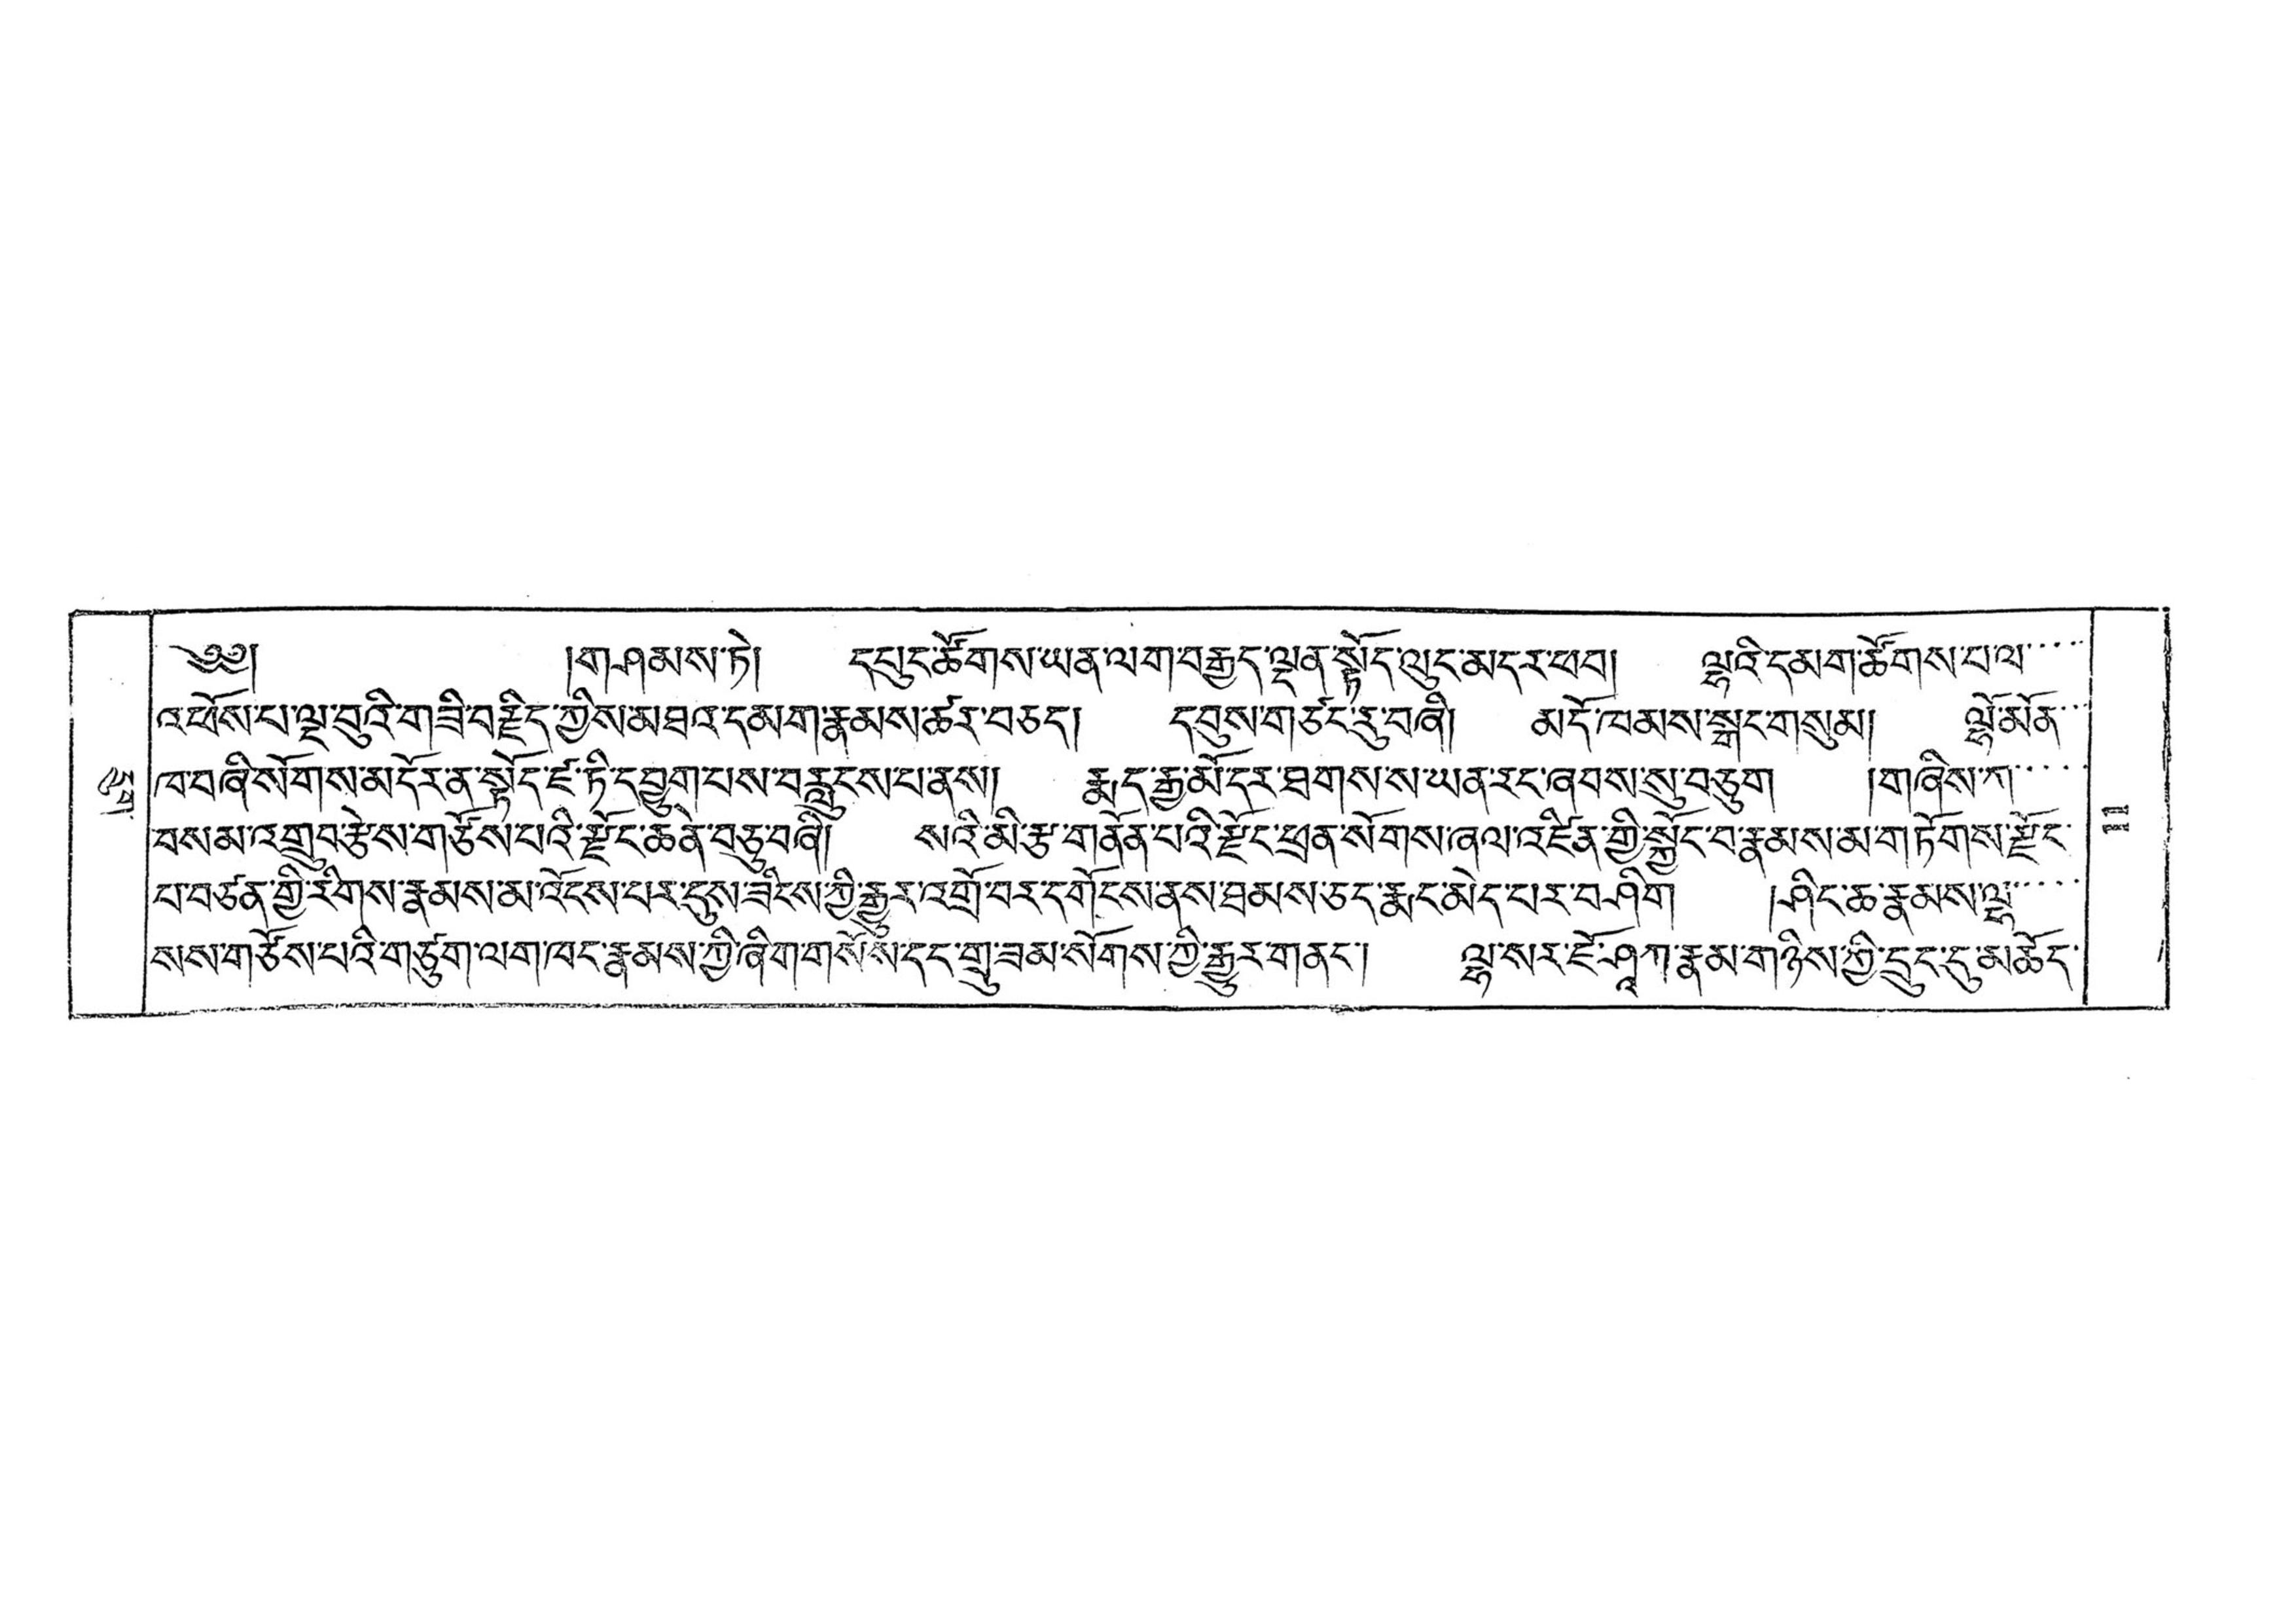དྲུག་
༄༅། །གཤམས་ཏེ། དཔུང་ཚོགས་ཡན་ལག་བརྒྱད་ལྡན་སྟོད་ལུང་མདར་ཕབ། ལྷའི་དམག་ཚོགས་པ་ལ་་་་་
འཕོས་པ་ལྔ་བུའི་གཟི་བརྗིད་ཀྱིས་མཐའ་དམག་རྣམས་ཚར་བཅད། དབུས་གཙང་རུ་བཞི། མདོ་ཁམས་སྒང་གསུམ། ལྷོ་མོན་་་
ཁ་བཞི་སོགས་མདོར་ན་སྟོད་ཛ་ཏི་དབྱུག་པས་བརླུངས་པ་ནས། རྨད་རྒྱ་མོ་དར་ཐགས་ས་ཡན་རང་ཞབས་སུ་བཅུག །གཞིས་ཀ་་་
བསམ་འགྲུབ་རྩེས་གཙོསཔའི་རྫོང་ཆེན་བཅུ་བཞི། སའི་མི་རྩ་གནོན་པའི་རྫོང་ཕྲན་སོགས་ཞལ་འཛིན་གྱི་སྐྱོང་བ་རྣམས་མ་གཏོགས་རྫོང་
པ་བཙན་གྱི་རིགས་རྣམས་མ་འོངས་པར་དུས་ཟིངས་ཀྱི་རྒྱུར་འགྲོ་བར་དགོངས་ནས་ཐམས་ཅད་རྨང་མེད་པར་བཤིག །ཤིང་ཆ་རྣམས་ལྷ་་་
སས་གཙོས་པའི་གཙུག་ལག་ཁང་རྣམས་ཀྱི་ཞིག་གསོས་དང་གྲུ་ཟམ་སོགས་ཀྱི་རྒྱུར་གནང་། ལྷ་སར་ཇོ་ཤཱཀ་རྣམ་གཉིས་ཀྱི་དྲུང་དུ་མཆོད་
